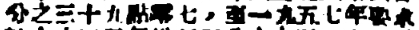分之三十九點零七，至一九五七年要求
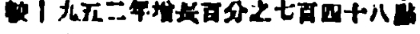較一九五二年增長百分之七百四十八點
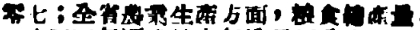零七；全省農業生產方面，粮食總產量
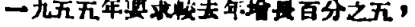一九五五年要求較去年增長百分之五，
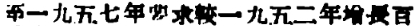至一九五七年要求較一九五二年增長百
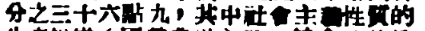分之三十六點九，其中社會主義性質的
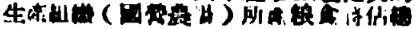生產組織（國營農場）所產粮食將佔總
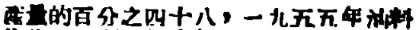產量的百分之四十八，一九五五年油料
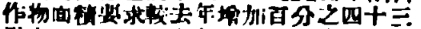作物面積要求較去年增加百分之四十三
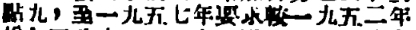點九，至一九五七年要求較一九五二年
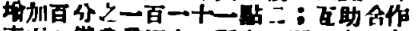增加百分之一百一十一點二；互助合作
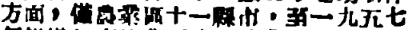方面，僅農業區十一縣市，至一九五七
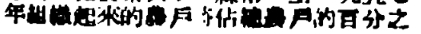年組織起來的農戶將佔總農戶的百分之
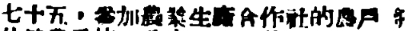七十五，參加農業生產合作社的農戶將
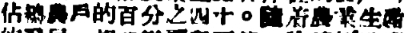佔總農戶的百分之四十。隨着農業生產
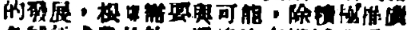的發展，根據需要與可能，除積極推廣
